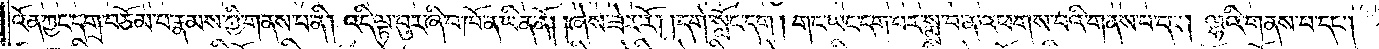འོན་ཀྱང་དགྲ་བཅོམ་པ་རྣམས་ཀྱི་གནས་པ་ནི། འདི་ལྟ་བུར་ཞི་བ་ཁོ་ན་ཡིན་ནོ། །ཞེས་ཟེར་རོ། །དགེ་སློང་དག། གང་ཡང་དག་པར་སྨྲ་བ་ན་འཕགས་པའི་གནས་པ་དང༌། ལྷའི་གནས་པ་དང༌།
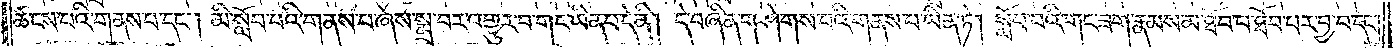ཚངས་པའི་གནས་པ་དང༌། མི་སློབ་པའི་གནས་པ་ཞེས་སྨྲ་བར་འགྱུར་བ་གང་ཡིན་པ་དེ་ནི། དེ་བཞིན་གཤེགས་པའི་གནས་པ་ཡིན་ཏེ། སློབ་པའི་གང་ཟག་རྣམས་མ་ཐོབ་པ་ཐོབ་པར་བྱ་བ་དང༌།
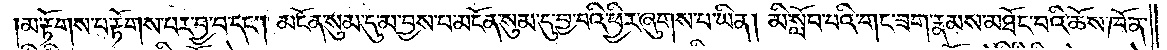མ་རྟོགས་པ་རྟོགས་པར་བྱ་བ་དང༌། མངོན་སུམ་དུ་མ་བྱས་པ་མངོན་སུམ་དུ་བྱ་བའི་ཕྱིར་ཞུགས་པ་ཡིན། མི་སློབ་པའི་གང་ཟག་རྣམས་མཐོང་བའི་ཆོས་ཁོ་ན་
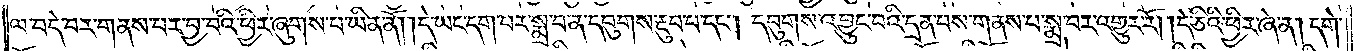ལ་བདེ་བར་གནས་པར་བྱ་བའི་ཕྱིར་ཞུགས་པ་ཡིན་ནོ། །དེ་ཡང་དག་པར་སྨྲ་བ་ན་དབུགས་རྔུབ་པ་དང༌། དབུགས་འབྱུང་བའི་དྲན་པས་གནས་པ་སྨྲ་བར་འགྱུར་རོ། །དེ་ཅིའི་ཕྱིར་ཞེ་ན། དགེ་
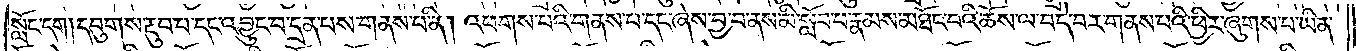སློང་དག། དབུགས་རྔུབ་པ་དང་འབྱུང་བ་དྲན་པས་གནས་པ་ནི། འཕགས་པའི་གནས་པ་དང་ཞེས་བྱ་བ་ནས་མི་སློབ་པ་རྣམས་མཐོང་བའི་ཆོས་ལ་བདེ་བར་གནས་པའི་ཕྱིར་ཞུགས་པ་ཡིན་
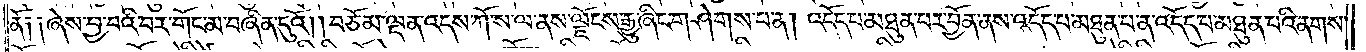ནོ༑ ༑ཞེས་བྱ་བའི་བར་གོང་མ་བཞིན་དུའོ། །བཅོམ་ལྡན་འདས་ཀོ་ས་ལ་ནས་ལྗོངས་རྒྱུ་ཞིང་གཤེགས་པ་ན། འདོད་པ་མཐུན་པར་བྱོན་ནས་འདོད་པ་མཐུན་པ་ན་འདོད་པ་མཐུན་པའི་ནགས་
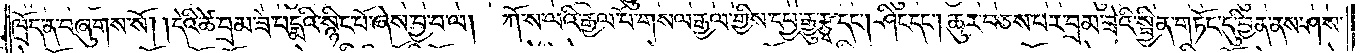ཁྲོད་ན་བཞུགས་སོ། །དེའི་ཚེ་བྲམ་ཟེ་པདྨའི་སྙིང་པོ་ཞེས་བྱ་བ་ལ། ཀོ་ས་ལའི་རྒྱལ་པོ་གསལ་རྒྱལ་གྱིས་དཔྱ་རྒྱུ་རྩྭ་དང༌། ཤིང་དང༌། ཆུར་བཅས་པར་བྲམ་ཟེའི་སྦྱིན་གཏོང་དུ་བྱིན་ནས་ཤས་
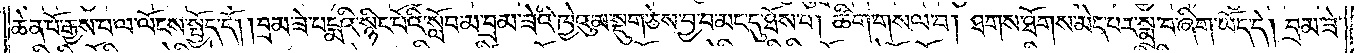ཆེན་པོ་རྒྱས་པ་ལ་ལོངས་སྤྱོད་དོ། །བྲམ་ཟེ་པདྨའི་སྙིང་པོ་སློབ་མ་བྲམ་ཟེའི་ཁྱེའུ་མ་སྡུག་ཅེས་བྱ་བ་མང་དུ་ཐོས་པ། ཚིག་གསལ་བ། ཐགས་ཐོགས་མེད་པར་སྨྲ་བ་ཞིག་ཡོད་དེ། བྲམ་ཟེ་
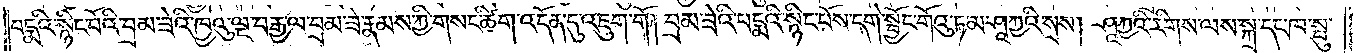པདྨའི་སྙིང་པོའི་བྲམ་ཟེའི་ཁྱེའུ་ལྔ་བརྒྱ་ལ་བྲམ་ཟེ་རྣམས་ཀྱི་གསང་ཚིག་འདོན་དུ་འཇུག་གོ། བྲམ་ཟེའི་པདྨའི་སྙིང་པོས་དགེ་སློང་གོའུ་ཏ་མ་ཤཱཀྱའི་སྲས། ཤཱཀྱའི་རིགས་ལས་སྐྲ་དང་ཁ་སྤུ་
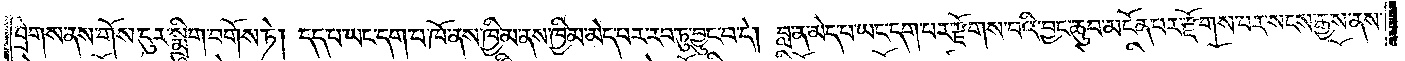བྲེགས་ནས་གོས་ངུར་སྨྲིག་བགོས་ཏེ། དད་པ་ཡང་དག་པ་ཁོ་ནས་ཁྱིམ་ནས་ཁྱིམ་མེད་པར་རབ་ཏུ་བྱུང་བ་དེ། བླ་ན་མེད་པ་ཡང་དག་པར་རྫོགས་པའི་བྱང་ཆུབ་མངོན་པར་རྫོགས་པར་སངས་རྒྱས་ནས་
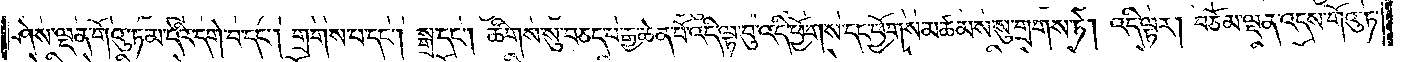ཤེས་ལྡན་གོའུ་ཏ་མ་དེའི་དགེ་བ་དང༌། གྲགས་པ་དང༌། སྒྲ་དང༌། ཚིགས་སུ་བཅད་པ་རྒྱ་ཆེན་པོ་འདི་ལྟ་བུ་འདི་ཕྱོགས་དང་ཕྱོགས་མཚམས་སུ་གྲགས་ཏེ། འདི་ལྟར། བཅོམ་ལྡན་འདས་གོའུ་ཏ་
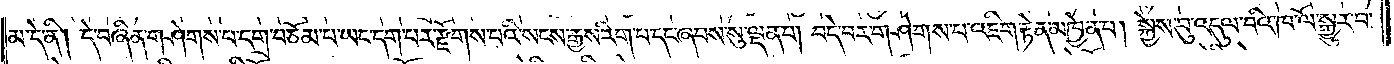མ་དེ་ནི། དེ་བཞིན་གཤེགས་པ་དགྲ་བཅོམ་པ་ཡང་དག་པར་རྫོགས་པའི་སངས་རྒྱས་རིག་པ་དང་ཞབས་སུ་ལྡན་པ། བདེ་བར་གཤེགས་པ་འཇིག་རྟེན་མཁྱེན་པ། སྐྱེས་བུ་འདུལ་བའི་ཁ་ལོ་སྒྱུར་བ་
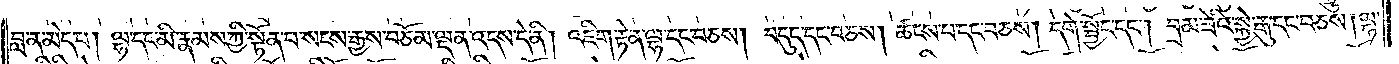བླ་ན་མེད་པ། ལྷ་དང་མི་རྣམས་ཀྱི་སྟོན་པ་སངས་རྒྱས་བཅོམ་ལྡན་འདས་དེ་ནི། འཇིག་རྟེན་ལྷ་དང་བཅས། བདུད་དང་བཅས། ཚངས་པ་དང་བཅས། དགེ་སྦྱོང་དང༌། བྲམ་ཟེའི་སྐྱེ་རྒུ་དང་བཅས། ལྷ་
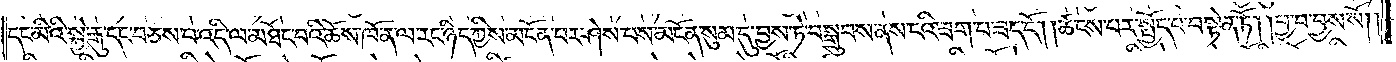དང་མིའི་སྐྱེ་རྒུ་དང་བཅས་པ་འདི་ལ་མཐོང་བའི་ཆོས་ཁོ་ན་ལ་རང་ཉིད་ཀྱིས་མངོན་པར་ཤེས་པས་མངོན་སུམ་དུ་བྱས་ཏེ་བསྒྲུབས་ནས་ངའི་ཟག་པ་ཟད་དོ། །ཚངས་པར་སྤྱོད་པ་བསྟེན་ཏོ། །བྱ་བ་བྱས་སོ། །
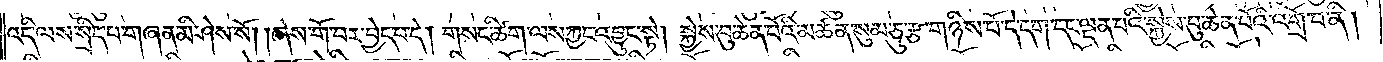འདི་ལས་སྲིད་པ་གཞན་མི་ཤེས་སོ། །ཞེས་གོ་བར་བྱེད་པ་དེ། གསང་ཚིག་ལས་ཀྱང་འབྱུང་སྟེ། སྐྱེས་བུ་ཆེན་པོའི་མཚན་སུམ་ཅུ་རྩ་གཉིས་པོ་དེ་དག་དང་ལྡན་པའི་སྐྱེས་བུ་ཆེན་པོའི་འགྲོ་བ་ནི།
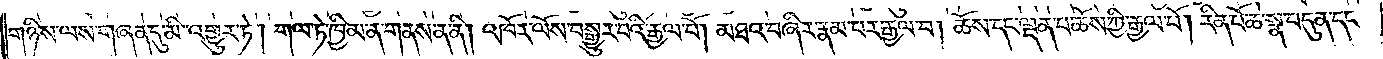གཉིས་ལས་གཞན་དུ་མི་འགྱུར་ཏེ། གལ་ཏེ་ཁྱིམ་ན་གནས་ན་ནི། འཁོར་ལོས་བསྒྱུར་བའི་རྒྱལ་པོ། མཐའ་བཞིར་རྣམ་པར་རྒྱལ་བ། ཆོས་དང་ལྡན་པ་ཆོས་ཀྱི་རྒྱལ་པོ། རིན་པོ་ཆེ་སྣ་བདུན་དང་
